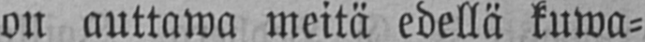on auttawa meitä edellä kuwa-
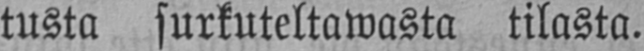tusta surkuteltawasta tilasta.
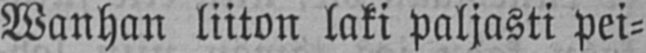Wanhan liiton laki paljasti pei-
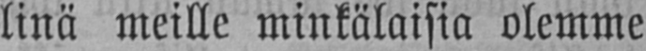linä meille minkälaisia olemme
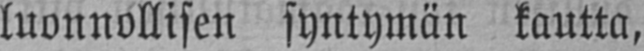luonnollisen syntymän kautta,
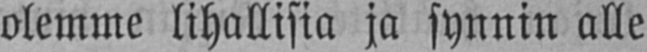olemme lihallisia ja synnin alle
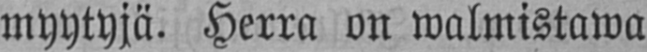myytyjä. Herra on walmistawa
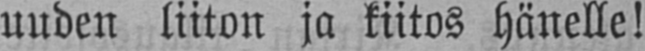uuden liiton ja kiitos hänelle!
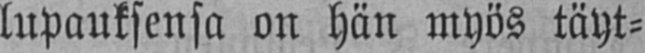lupauksensa on hän myös täyt-
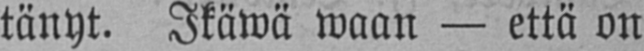tänyt. Ikäwä waan — että on
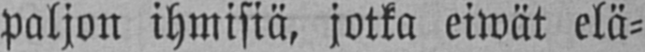paljon ihmisiä, jotka eiwät elä-
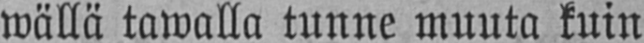wällä tawalla tunne muuta kuin
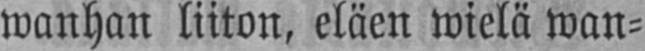wanhan liiton, eläen wielä wan-
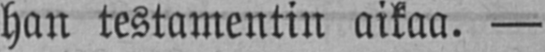han testamentin aikaa. —
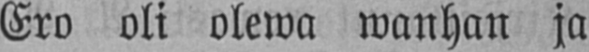Ero oli olewa wanhan ja
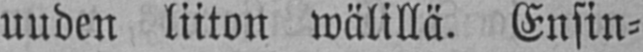uuden liiton wälillä. Ensin-
